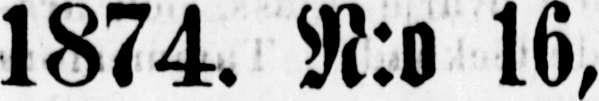1874. N:o 16,
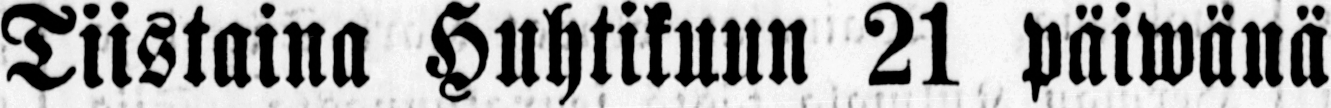Tiistaina Huhtikuun 21 päiwänä
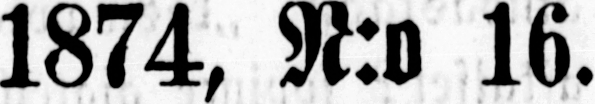1874, N:o 16.
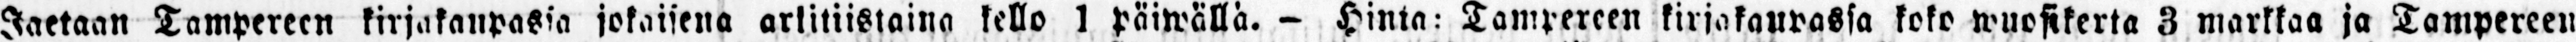Jaetaan Tampereen kirjakaupassa jokaisena arkitiistaina kello 1 päiwällä. - Hinta: Tampereen kirjakaupassa koko wuosikerta 3 markkaa ja Tampereen
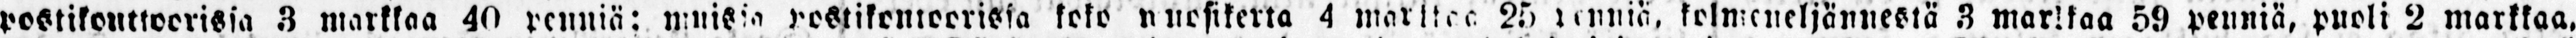postikouttoorissa 8 markkaa 40 penniä: muissa 1 postikontoorissa koko wuosikerta 4 markkaa 25 penniä 3 kolmeneljännestä 3 Markkaa 59) penniä, puoli 2 markkaa.
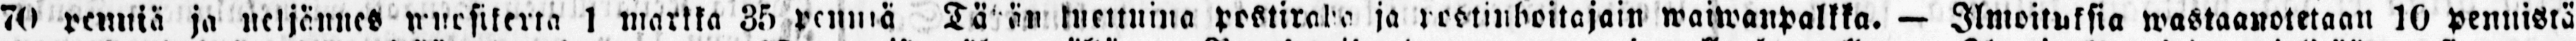70 penniä ja neljännes wusikerta 1 markka 35, penniä Tä' än luettuina postiraha ja postinboitajain waiwanpalkka. — Ilmoituksia wastaanotetaan 10 pennistä
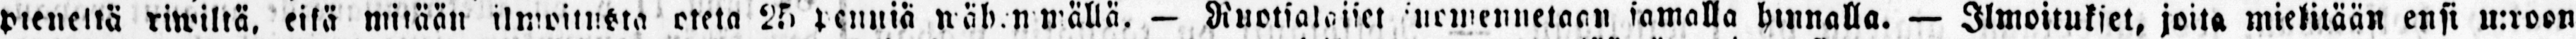pieneltä riwiltä, eikä mitään ilmoitusta oteta 25, penniä wähenmällä. — Ruotsalaiset suomennetaan samalla hinnalla. — Ilmoitukset, joita mielitään ensi u:roon
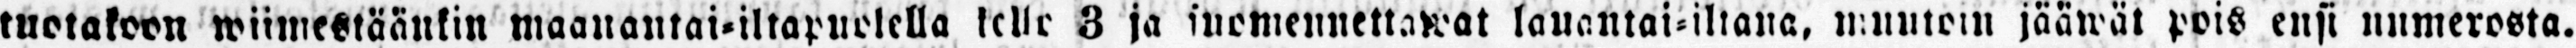tuotakoon wiimestäänkin maanantai-iltapuelella kello 3 ja suomennettawat lauantai-iltana, muutoin jääwät pois ensi numerosta.
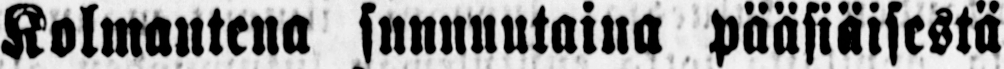Kolmantena sunnuutaina pääsiäistä
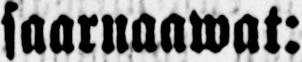saarnaawat:
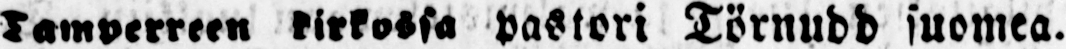Tamperreen kirkossa pastori Törnudd suomea,
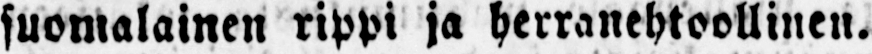suomalainen rippi ja herranehtoollinen.
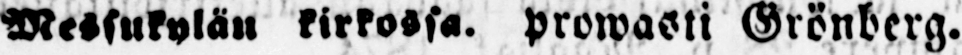Messukylän kirkossa. prowasti Grönberg.
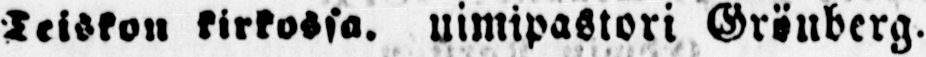Teiskon kirkossa. uimipastori Grönberg.
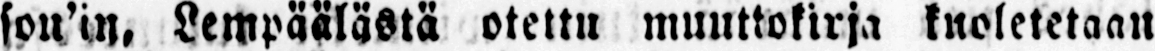son'in. Lempäälästä otettu muuttokirja kuoletetaan
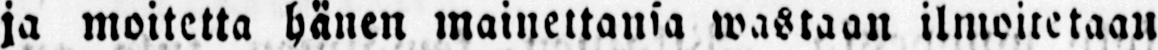ja moitetta hänen mainettansa wastaan ilmoitetaan
